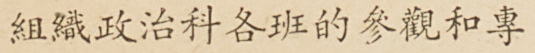組織政治科各班的參觀和專
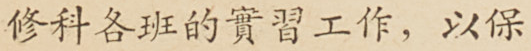修科各班的實習工作，以保
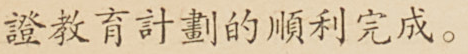證教育計畫的順利完成。
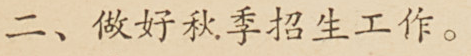二、作好秋季招生工作。
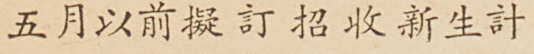五月以前擬定招收新生計
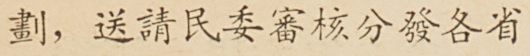劃，送請民委審核分發各省
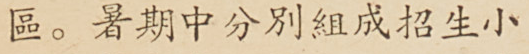區。暑期中分別組成招生小
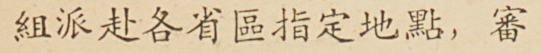組派赴各省區指定地點，審
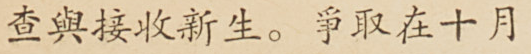查與接收新生。爭取在十月
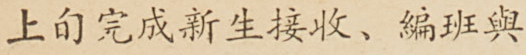上旬完成新生接收、編班與
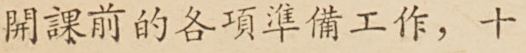開課前的各項準備工作，十
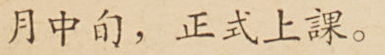月中旬，正式上課。
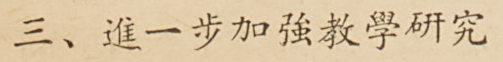三、進一步加強教學研究
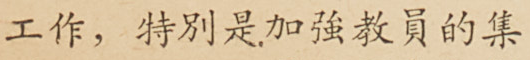工作，特別是加強教員的集
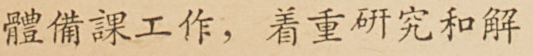體備課工作，着重研究和解
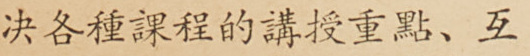决各種課程的講授重點、互
